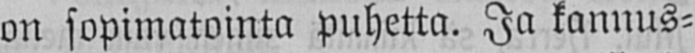on sopimatointa puhetta. Ja kannus-
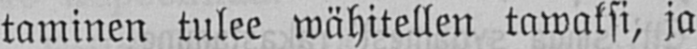taminen tulee wähitellen tawaksi, ja
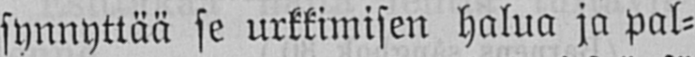synnyttää se urkkimisen halua ja pal-
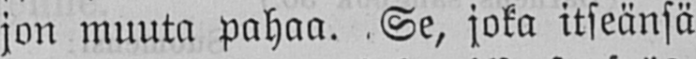jon muuta pahaa. Se, joka itseänsä
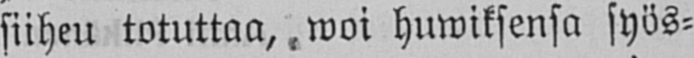siiheu totuttaa, woi huwiksensa syös-
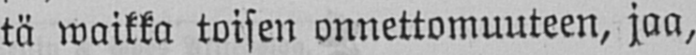tä waikka toisen onnettomuuteen, jaa,
